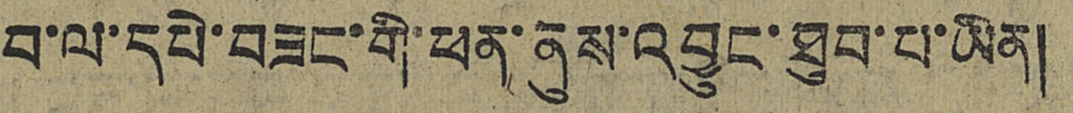བ་ལ་དཔེ་བཟང་གི་ཕན་ནུས་འབྱུང་ཐུབ་པ་ཡིན།
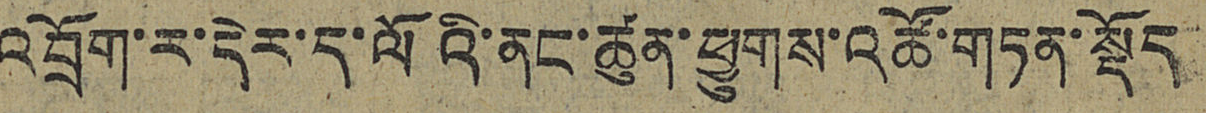འབྲོག་ར་དེར་ད་ལོའི་ནང་ཚུན་ཕྱུགས་འཚོ་གཏན་སྡོད
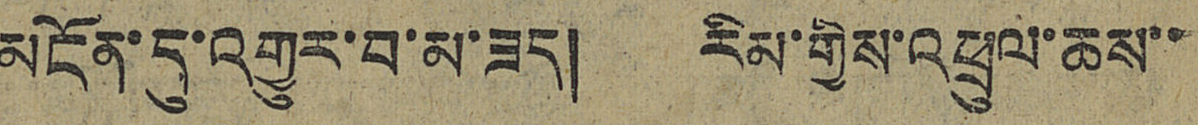མངོན་དུ་འགྱུར་བ་མ་ཟད། རིམ་གྱིས་འཕྲུལ་ཆས་་
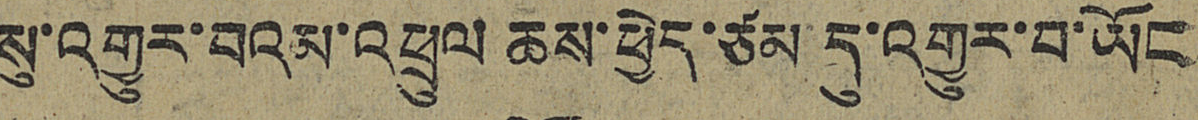སུ་འགྱུར་བའམ་འཕྲུལ ཆས་ཕྱེད་ཙམ་དུ་འགྱུར་བ་ཡོང
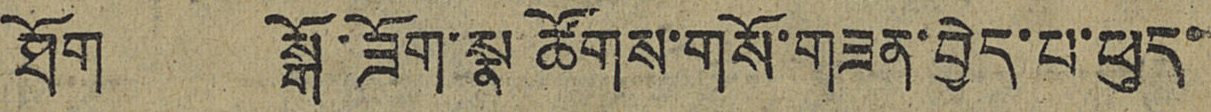ཐོག སྒོ་ཟོག་སྣ་ཚོགས་གསོ་གཟན་བྱེད་པ་ཕུད་
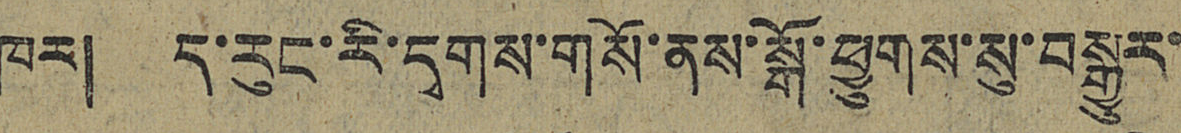ཁར། ད་རུང་རི་དྭགས་གསོ་ནས་སྒོ་ཕྱུགས་སུ་བསྒྱུར་་
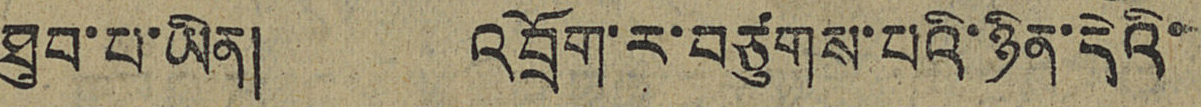ཐུབ་པ་ཡིན། འབྲོག་ར་བཙུགས་པའི་ཉིན་དེའི་
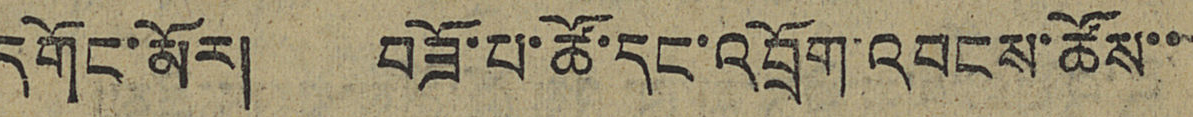དགོང་མོར། བཟོ་པ་ཚོ་དང་འབྲོག་འབངས་ཚོས་་
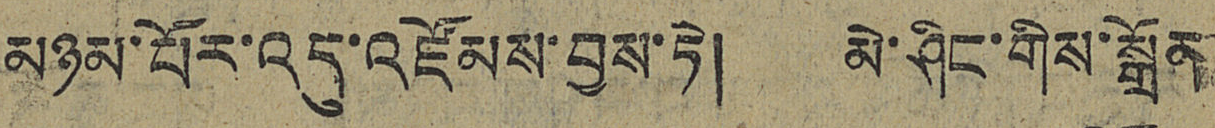མཉམ་པོར་འདུ་འཛོམས་བྱས་ཏེ། མེ་ཤིང་གིས་སྒྲོན
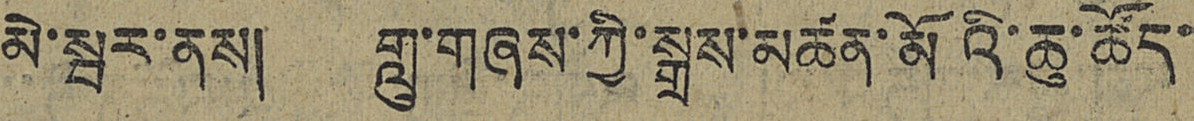མེ་སྦར་ནས། གླུ་གཞས་ཀྱི་སྒྲས་མཚན་མོའི་ཆུ་ཚོད་
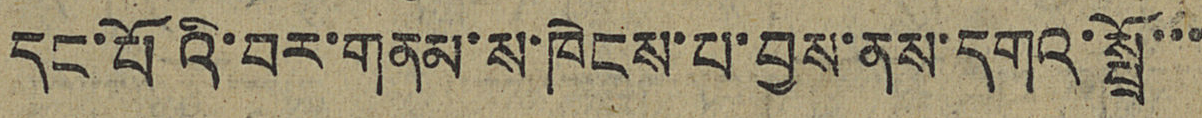དང་པོའི་བར་གནམ་ས་ཁེངས་པ་བྱས་ནས་དགའ་སྤྲོ་་་
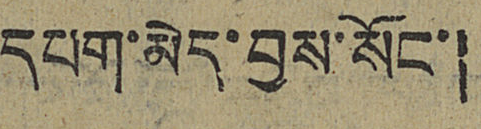དཔག་མེད་བྱས་སོང་།
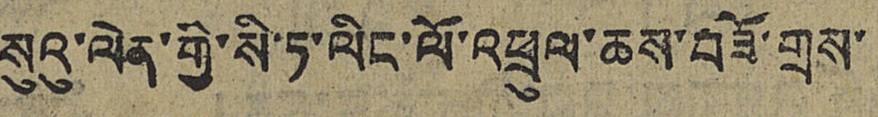སུའུ་ལེན་གྱི་སི་ཏ་ལིང་ལོ་འཕྲུལ་ཆས་བཟོ་གྲས་
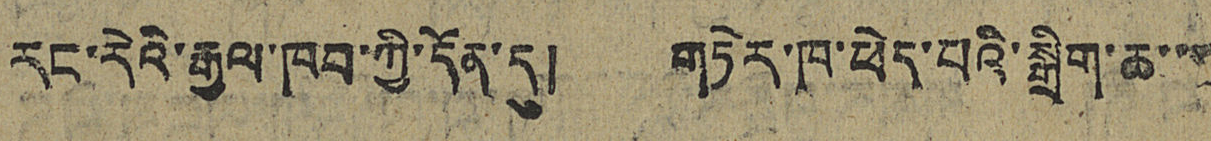རང་རེའི་རྒྱལ་ཁབ་ཀྱི་དོན་དུ། གཏེར་ཁ་ཕེད་པའི་སྒྲིག་ཆ་་་
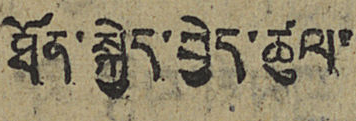ཐོན་སྐྱེད་བྱེད་ཚུལ་
